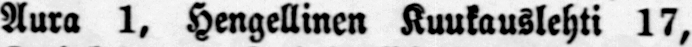Aura 1, Hengellinen Kuukauslehti 17,
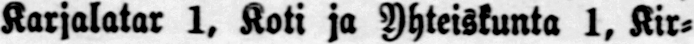Karjalatar 1, Koti ja Yhteiskunta 1, Kir-
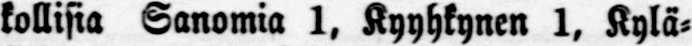kollisia Sanomia 1, Kyyhkynen 1, Kylä-
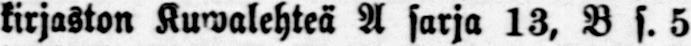kirjaston Kuwalehteä A sarja 13, B s. 5
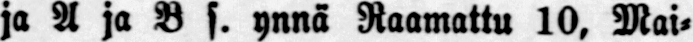ja A ja B s. ynnä Raamattu 10, Mai-
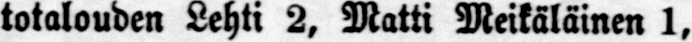totalouden Lehti 2, Matti Meikäläinen 1,
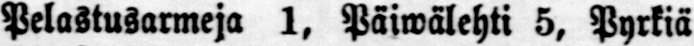Pelastusarmeja 1, Päiwälehti 5, Pyrkiä
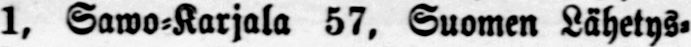1, Sawo-Karjala 57. Suomen Lähetys-
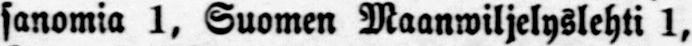sanomia 1, Suomen Maanwiljelyslehti 1,
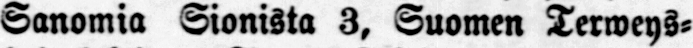Sanomia Sionista 3, Suomen Terweys-
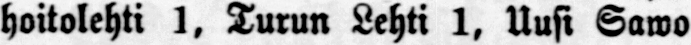hoitolehti 1, Turun Lehti 1, Uusi Sawo
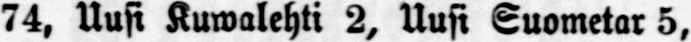74, Uusi Kuwalehti 2, Uusi Suometar 5,
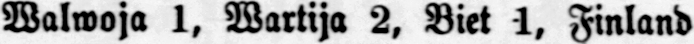Walwoja 1, Wartija 2, Biet 1, Finland
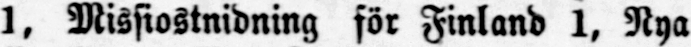1, Missiostnidning för Finland 1, Nya
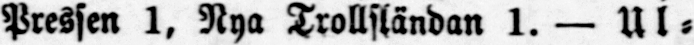Pressin 1, Nya Trollsländan 1. — Ul-
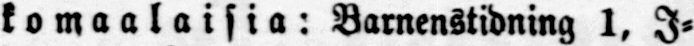komaalaisia: Barnenstidning 1, I-
